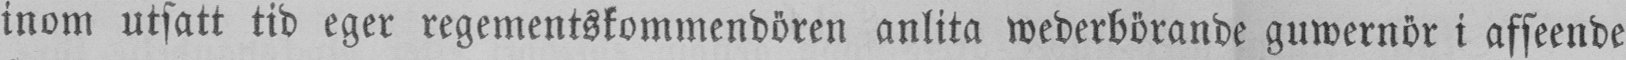inom utsatt tid eger regementskommendören anlita wederbörande guwernör i afseende
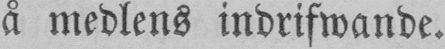å medlens indrifwande.
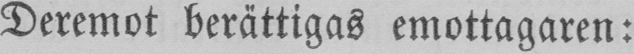Deremot berättigas emottagaren:
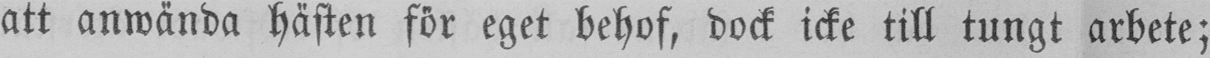att anwända hästen för eget behof, dock icke till tungt arbete;
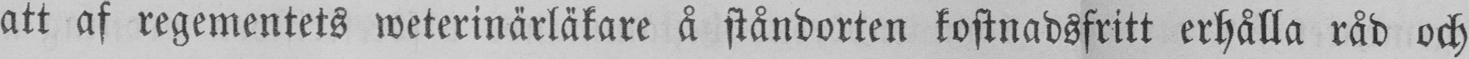att af regementets weterinärläkare å ståndorten kostnadsfritt erhålla råd och
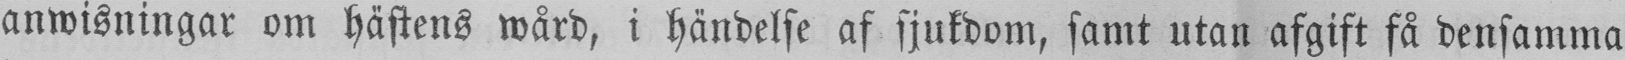anwisningar om hästens wård, i händelse af sjukdom, samt utan afgift få densamma
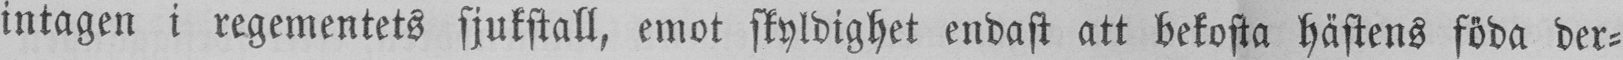intagen i regementets sjukstall, emot skyldighet endast att bekosta hästens föda der-
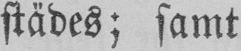städes; samt
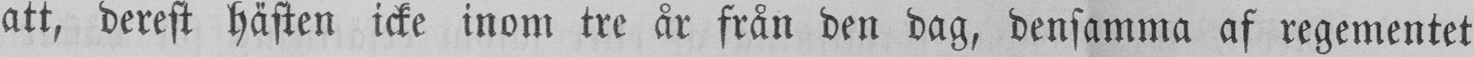att, derest hästen icke inom tre år från den dag, densamma af regementet
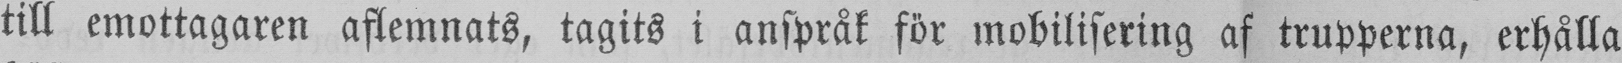till emottagaren aflemnats, tagits i anspråk för mobilisering af trupperna, erhålla
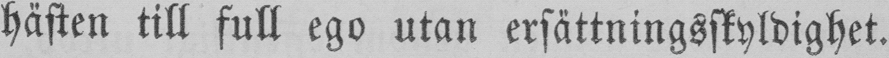hästen till full ego utan ersättningsskyldighet.
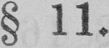§ 11.
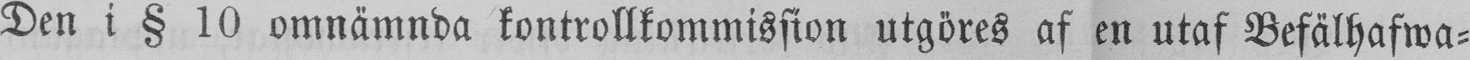Den i § 10 omnämnda kontrollkommission utgöres af en utaf Befälhafwa-
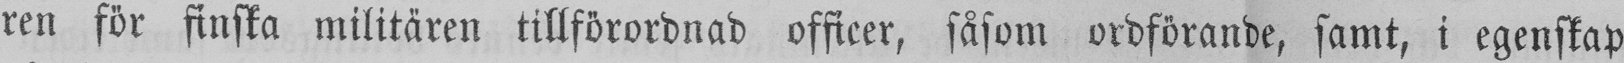ren för finska militären tillförordnad officer, såsom ordförande, samt, i egenskap
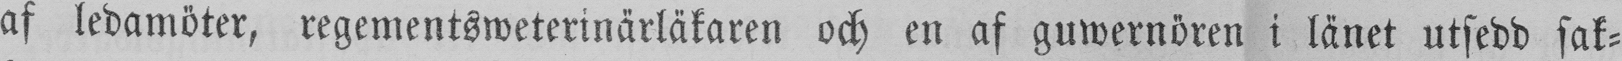af ledamöter, regementsweterinärläkaren och en af guwernören i länet utsedd sak-
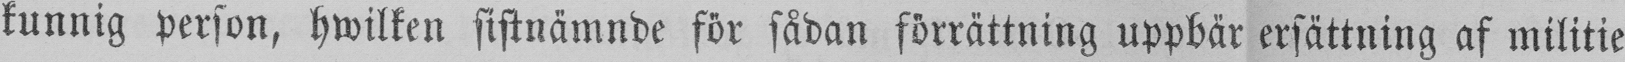kunnig person, hwilken sistnämnde för sådan förrättning uppbär ersättning af militie
